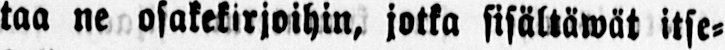taa ne osakekirjoihin, jotka sisältäwät itse-
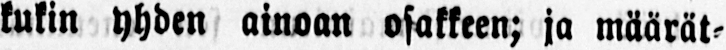kukin yhden ainoan osakkeen; ja määrät-
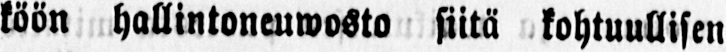köön hallintoneuwosto siitä kohtuullisen
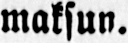maksun.
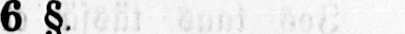6 §.
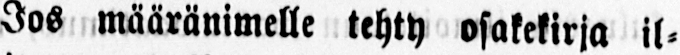Jos määränimelle tehty osakekirja il-
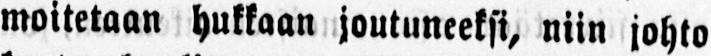moitetaan hukkaan joutuneeksi, niin johto-
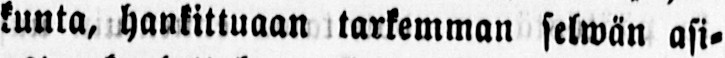kunta, hankittuaan tarkemman selwän asi-
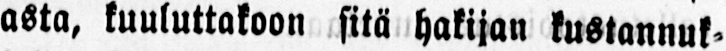asta, kuuluttakoon sitä hakijan kustannuk-
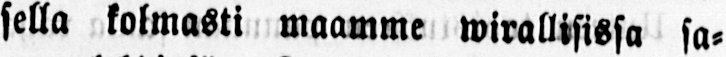sella kolmasti maamme wirallisissa sa-
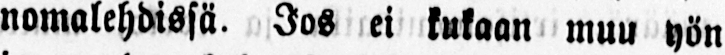nomalehdissä. Jos ei kukaan muu yön
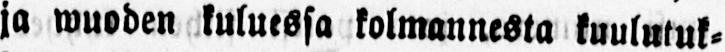ja wuoden kuluessa kolmannesta kuulutuk-
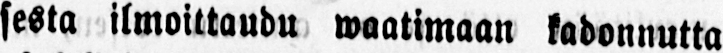sesta ilmoittaudu waatimaan kadonnutta
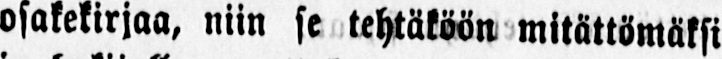osakekirjaa, niin se tehtäköön mitättömäksi
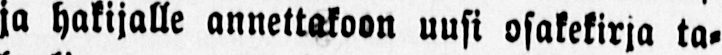ja hakijalle annettakoon uusi osakekirja ta-
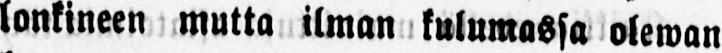lonkineen mutta ilman kulumassa olewan
